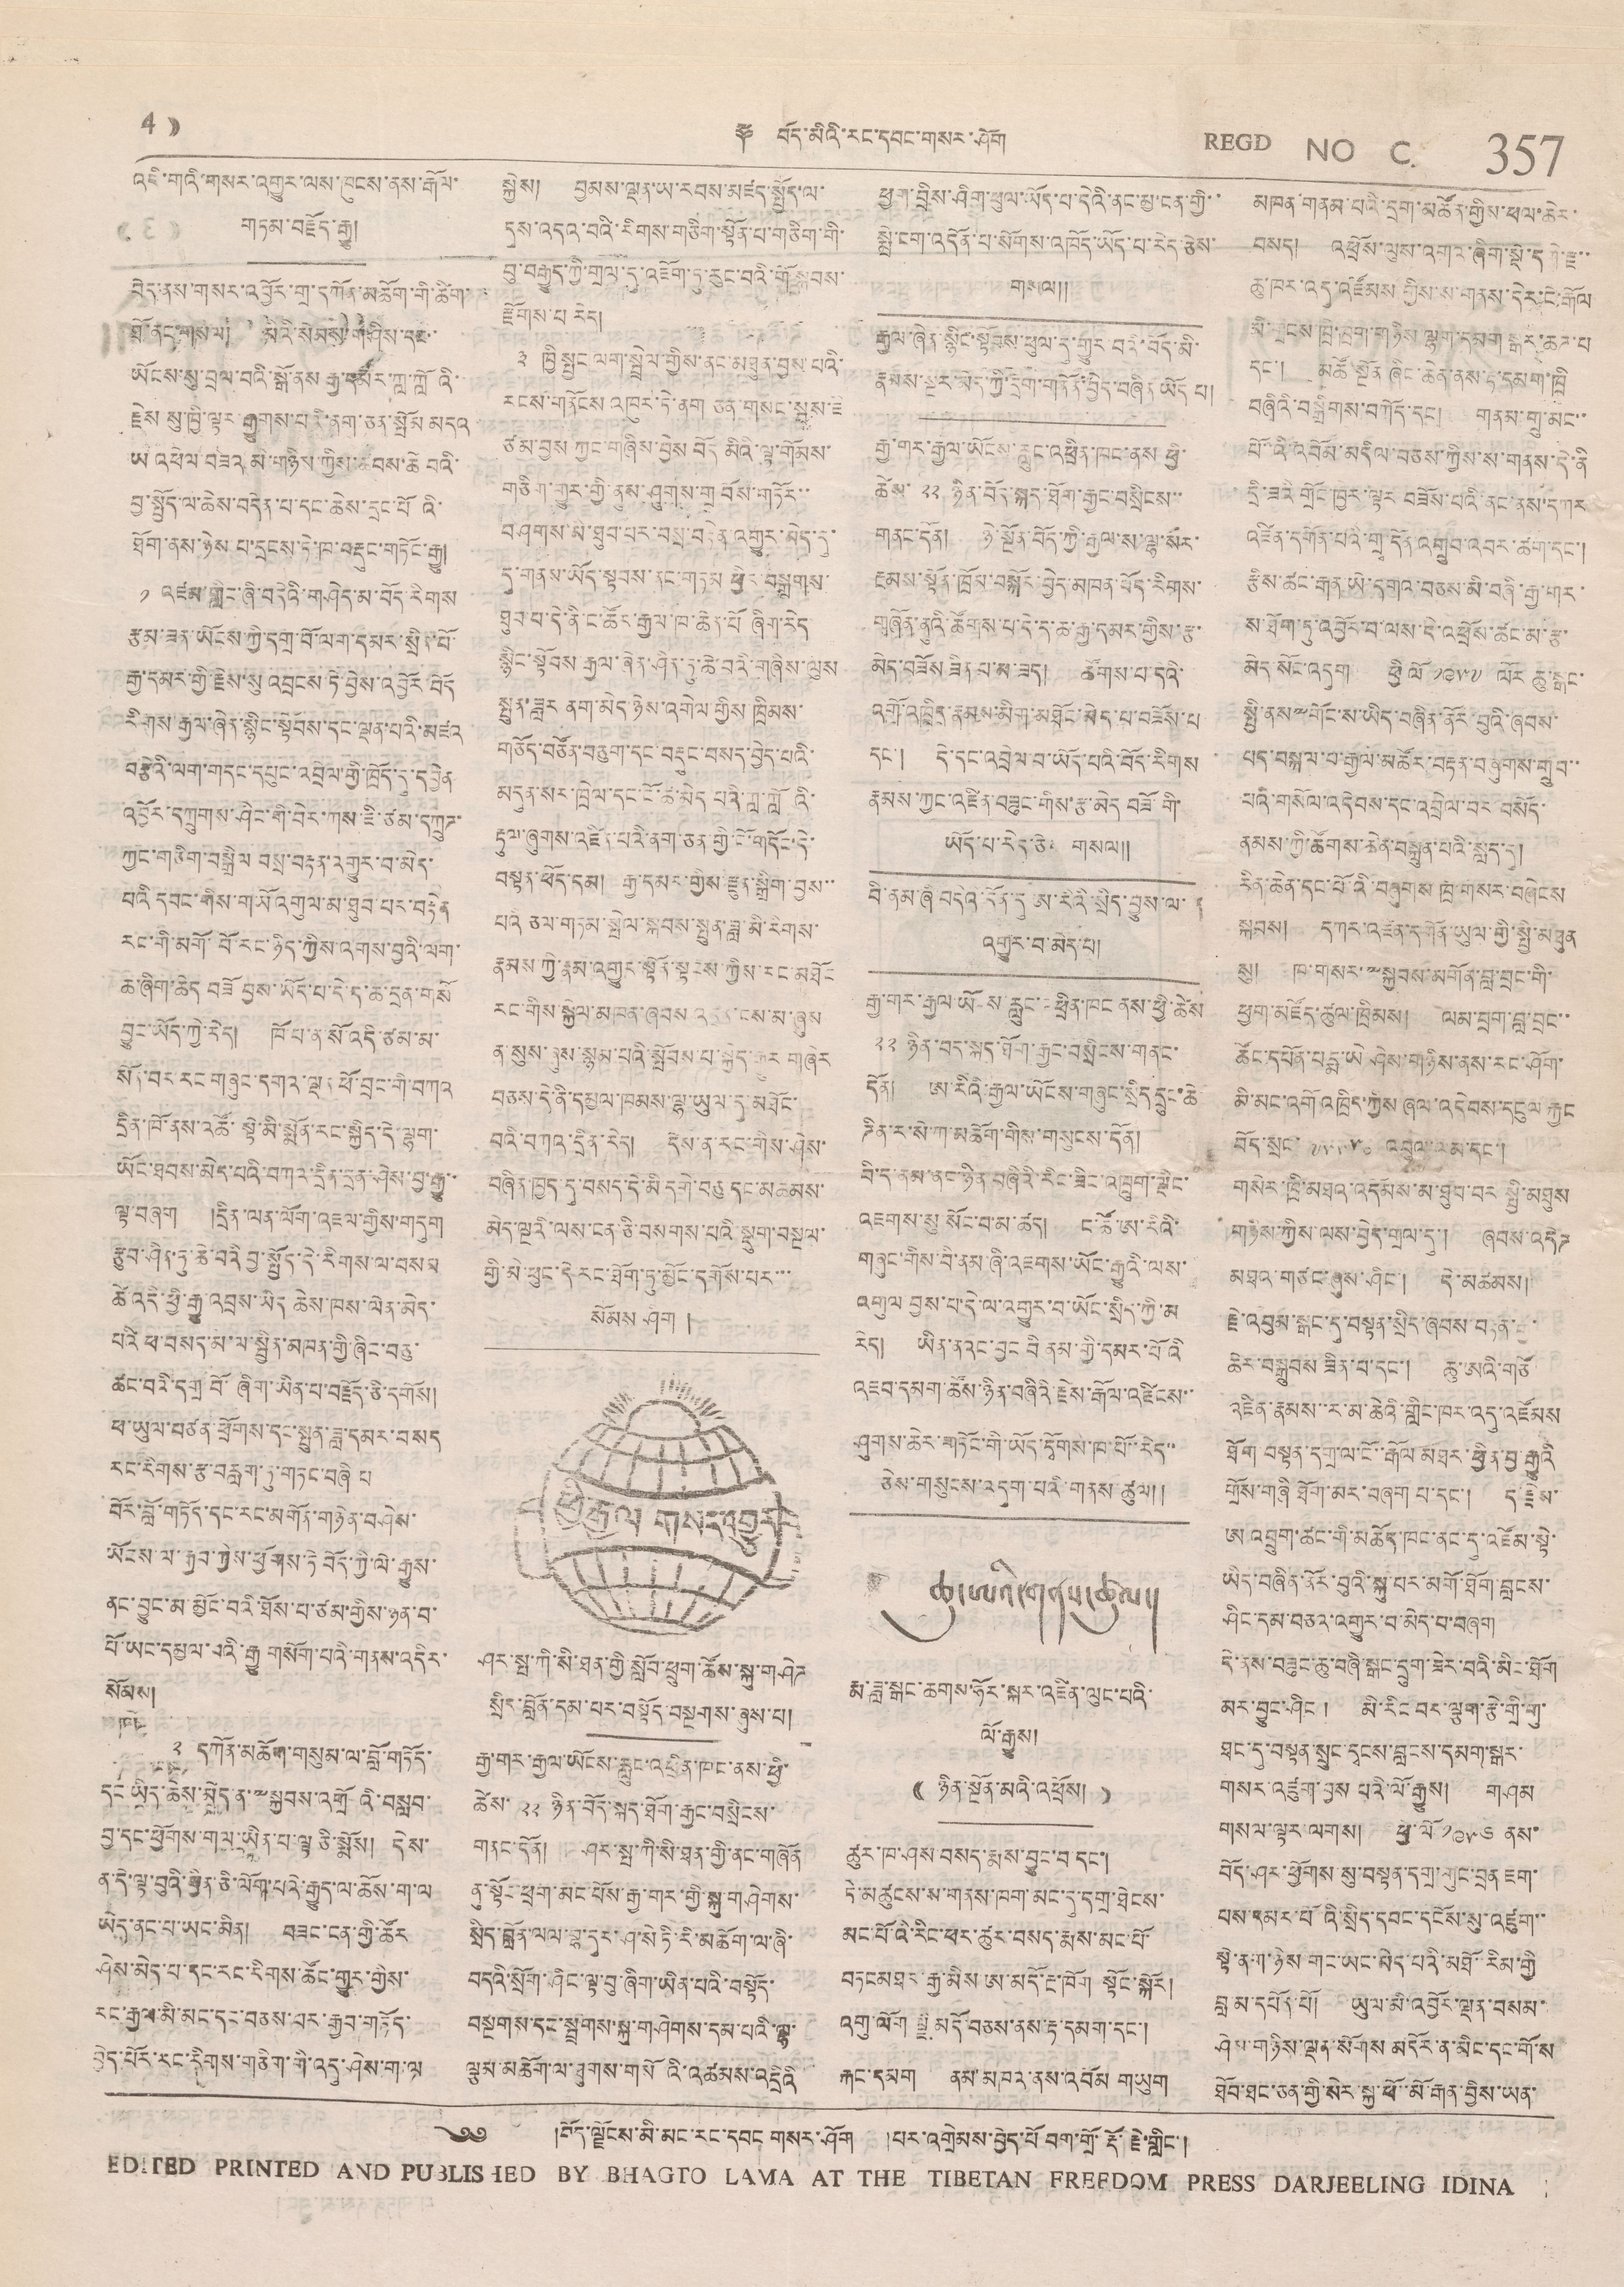4)) ༈ བོད་མིའི་རང་དབང་གསར་ཤོག REGD NO C 357
འདི་གའི་གསར་འགྱུར་ལས་ཁུངས་ནས་རྒོལ་
གཏམ་བརྗོད་རྒྱུ།
བེད་ནས་གསར་འབྱོར་གྲ་དཀོན་མཆོག་གི་ཚིག་
ཐོ་ནང་གསལ། མིའི་སེམས་གཤིས་དང་
ཡོངས་སུ་བྲལ་བའི་སྒོ་ནས་རྒྱ་དམར་གླ་གློའི་
རྗེས སུ་ཁྱི་ལྟར་རྒྱུགས་པའི་ནག་ཅན་སྤོམ མདའ
ཡ འཕེལ བཟའ མི་གཉིས་ཀྱིས་ཚབས་ཆེ བའི་
བྱ་སྤྱོད་ལ་ཆེས་བདེན་པ་དང་ཆེས་དྲང་པོའི་
ཐོག་ནས་ཉེས་པ་དྲངས་ཏེ་ཁ་བརྡུང་གཏོང་རྒྱུ།
༡ འཛམ་གླིང་ཞི་བདེའི་གཤེད་མ་བོད་རིགས
རྩམ་ཟན་ཡོངས་ཀྱི་དགྲ་བོ་ལག་དམར་སྲིན་པོ་
རྒྱ་དམར་གྱི་རྗེས་སུ འབྲངས་ཏེ་བྱེས་འབྱོར་བོད
རིགས་རྒྱལ་ཞེན་སྙིང་སྟོབས་དང་ལྡན་པའི་མཛའ
བརྩེའི་ལག་གདང་དཔུང་འབྲེལ་གྱི་ཁྲོད་དུ་དབྱིན་
འབྱོར་དཀྲུགས་ཤིང་གི་བེར་ཀས་ཇི་ཙམ་དཀྲུཌ་
ཀྱང་གཅིག་བསྒྲིལ བསྲ་བརྟན་འགྱུར་བ་མེད་
པའི དབང་གིས་གཡོ འགུལ་མ་ཐུབ་པར་བརྟེན
རང་གི་མགོ་བོ་རང་ཉིད་ཀྱིས་འགས་བྱའི་ལག་
ཆ་ཞིག་ཆེད བཟོ བྱས་ཡོད་པ་དེ་ད་ཆ་དྲན་གསོ
བྱུང་ཡོད་ཀྱི་རེད། ཁོ་པ་ན་སོ་འདི་ཙམ་མ་
སོན་བར་རང་གཞུང་དགའ་ལྡན་ཕོ་བྲང་གི་བཀའ
དྲིན་ཁོ་ནས་འཚོ་སྟེ་མི་སྟོན་རང་སྐྱིད་དེ་ལྷག་
ཡོང་ཐབས་མེད་པའི་བཀའ་དྲིན་དྲན་ཤེས་བྱ་རྒྱུ་་
ལྟ་བཞག །དྲེན་ལན་ལོག་འཇལ་གྱིས་གདུག
རྩུབ་ཤིན་ཏུ་ཆེ་བའི བྱ་སྤྱོད་དེ་རིགས་ལ་བསམ
ཚེ་འདི་ཕྱི་རྒྱུ་འབྲས་ཡིད ཆེས་ཁས་ལེན་མེད་
པའི ཕ་བསད་མ་ལ་སྤྱིན་མཁན་གྱི་ཞིང་བཅུ་
ཚང་བའི་དགྲ་བོ་ཞིག་ཡིན་པ་བརྗོད་ཅི་དགོས།
ཕ་ཡུལ་བཙན་ཕྲོགས་དང་སྤུན་ཟླ་དམར་བསད
རང་རིགས་རྩ་བརླག་ཏུ་གཏང་བཞི པ
བོར་བློ་གཏོད་དང་རང་མགོན་གཉེན་བཤེས་
ཡོངས་ལ་རྒྱབ་གྱིས་ཕྱོགས་ཏེ་བོད་ཀྱི་ལེ་རྒྱུས་
ནང་བྱུང་མ་མྱོང་བའི་ཐོས་པ་ཙམ་གྱིས་ཉན་བ་
པོ་ཡང་དམྱལ་བའི་རྒྱུ གསོག་པའི་གནས་འདིར་
སོམས།
༢ དཀོན་མཆོག་གསུམ་ལ་བློ་གཏོད་
དང་ཡིད་ཆེས་མེད་ན་༸སྐྱབས་འགྲོའི་བསླབ་
བྱ་དང་ཕྱོགས་གལ་ཡིན་པ་ལྟ་ཅི་སྨོས། དེས་
ན་དེ་ལྟ་བུའི་ཕྱིན་ཅི་ལོག་པའི་རྒྱུད་ལ་ཆོས་ག་ལ
ཡེད་ནང་པ་ཡང་མིན། བཟང་ངན་གྱི་ཚོར
ཤེས་མེད་པ་དང་རང་རིགས་ཚོང་གྱུར་གྱིས་
རང་རྒྱལ་མི་མང་དང་བཅས་པར་རྒྱབ་གཏོད་
བྱེད་པོར་རང་རིགས་གཅིག་གི་འདུ་ཤེས་ག་ལ
སྐྱེས། བྱམས་ལྡན་ཡ་རབས་མཛད་སྤྱོད་ལ་
དུས་འདའ་བའི་རིགས་གཅིག་སྟོན་པ་གཅིག་གི་
བུ་བརྒྱུད་ཀྱི་གྲལ་དུ་འཇོག་དུ་རུང་བའི་གོ་སྐབས་
རྫོགས་པ་རེད།
༣ ཁྱི སྤྱང ལག་སྦྲེལ་གྱིས་ནང་མཐུན་བྱས་པའི་
རངས་གནོངས འཁུར་ཏེ་ནག ཅན་གསང་སྦས་ཇི
ཙམ་བྱས ཀྱང་གཞིས་བྱེས བོད མིའི་ལྟ་གོམས་
གཅིག་གྱུར་གྱི་ནུས་ཤུགས་གྲ བོས་གཏོར་་
གཤགས་མི་ཐུབ་པར་བསྲ་བརྟེན་འགྱུར་མེད་སུ་
དུ་གནས་ཡོད་སྟབས་ནང་གཏམ ཕྱིར་བསྒྲགས་
ཐུན་པ་དེ་ནི་ང་ཚོར་རྒྱལ་ཁབ་ཆེན་པོ ཞིག་རེད
སྙིང་སྟོབས་རྒྱལ་ཞེན་ཤིན་ཏུ་ཆེ་བའི་གཞིས་ལུས
སྤུན་ཟླར ནག་མེད་ཉེས་འགེལ་གྱིས་ཁྲིམས་
གཅོད་བཙོན་བཅུག་དང་བརྡུང་བསད་བྱེད་པའི་
མདུན་སར་ཁྲེལ་དང་ངོ་ཚ་མེད་པའི་ཀླ་ཀླའོ་
རྟུལ་ཞུགས་འཛིན་པའི་ནག་ཅན་གྱི་ངོ་དགོང་དེ་
བསྟན་ཕོད་དམ། རྒྱ་དམར་གྱིས་རྫུན་སྒྲིག་བྱས་་
པའི ཅལ་གཏམ་སྤེལ་སྐབས་སྤུན་ཟླ་མི་རིགས་
རྣམས ཀྱི་རྣམ་འགྱུར་སྟོན་སྟངས་ཀྱིས་རང་མཐོང
རང་གིས་སྐྱེལ་མཁན་ཞབས་འདྲན་མ་ཞུས
ན་སུས་ཞུས་སྙམ་པའི་སྤོབས་པ་སྐྱེད་རྒྱུར གཞེར
བཅས་དེ་ནི་དམྱལ་ཁམས་ལྷ་ཡུལ་དུ་མཐོང་
བའི་བཀའ་དྲིན་རེད། དེས་ན་རང་གིས་ཤེས་
བཞིན་ཁྱད་དུ་བསད་དེ་མི དགེ་བཅུ དང་མཚམས་
མེད་ལྔའི་ལས་ངན་ཅི་བསགས་པའི་སྡུག་བསྔལ་
གྱི་མེ་ཕུང་དེ རང་ཐོག་ཏུ་མྱོང་དགོས་པར་་་
སོམས་ཤིག །
ཕྱི་རྒྱལ གསར་འགྱུར
ཤར་སྤ་ཀི་སི་ཐན་གྱི་སློབ་ཕྲུག་ཚོས་སྐུ་གཤེཌ
སྲིད་བློན་དམ་པར་བསྟོད་བསྔགས་ཞུས་པ།
རྒྱ་གར་རྒྱལ་ཡོངས་རླུང་འཕྲིན་ཁང་ནས་ཕྱི་
ཚེས་ ༢༢ ཉིན་བོད་སྐད་ཐོག་རྒྱང་བསྲིངས་
གནང་དོན། ཤར་སྤ་ཀི་སི་ཐན་གྱི་ནང་གཞོན
ནུ་སྟོང་ཕྲག་མང་པོས་རྒྱ་གར་གྱི་སྐུ་གཤེགས་
སྲིད་བློན་ལལ་བྷ་དུར་ཤ་སི་ཏི་རི་མཆོག་ལ་ཞི་
བདའི་སྲོག་ཤིང་ལྟ་བུ་ཞིག་ཡིན་པའི་བསྟོད་
བསྔགས་དང་སྦྲགས་སྐུ་གཤེགས་དམ་པའི་ལྷ་
ལྕམ་མཆོག་ལ་ཐུགས་གསོའི་མཚམས་འདྲིའི
ཕྱག་བྲིས་ཤིག་ཕུལ་ཡོད་པ་དེའི་ནང་མྱ་ངན་གྱི་་
སྨྲེ་ངག་འདོན་པ་སོགས་འཁོད་ཡོད་པ་རེད་ཅེས་
གསལ།།
རྒྱལ་ཞེན་སྙིང་སྟོབས་ཕུལ་དུ་གྱུར་བའི་བོད་མི་
རྣམས་སྔར་མེད་ཀྱི་དྲག་གནོན་བྱེད་བཞིན ཡོད པ།
རྒྱ་གར་རྒྱལ་ཡོངས་རླུང་འཕྲིན་ཁང་ནས ཕྱི་
ཚེས་ ༢༢ ཉིན་བོད་སྐད་ཐོག་རྒྱང་བསྲིངས་་
གནང་དོན། ཉེ་སྔོན་བོད་ཀྱི་རྒྱལ་ས་ལྷ་སར་
རྔམས་སྟོན་ཁྲོམ་བསྐོར་བྱེད་མཁན་བོད་རིགས་
གཞོན་ནུའི་ཚོགས་པ་དེ་ད་ཆ་རྒྱ་དམར་གྱིས་རྩ་
མེད་བཟོས ཟིན་པ་མ་ཟད། ཚོགས་པ་དེའི་
འགོ་འཁྲིད་རྣམས་མིག་མཐོང་མེད་པ་བཟོས་པ
དང་། དེ་དང་འབྲེལ་བ་ཡོད་པའི་བོད་རིགས
རྣམས་ཀྱང་འཛིན་བཟུང་གིས་རྩ་མེད་བཟོ་གི་
ཡོད་པ་རེད་ཅེས་གསལ།།
བི་ནམ་ཞི་བདེའི་དོན་དུ་ཨ་རིའི་སྲིད་བྱུས་ལ་
འགྱུར་བ་མེད་པ།
རྒྱ་གར་རྒྱལ་ཡོངས་རླུང་འཕྲིན་ཁང་ནས་ཕྱི་ཚེས
༢༢ ཉིན་བོད་སྐད་ཐོག་རྒྱང་བསྲིངས་གནང་
དོན། ཨ་རིའི་རྒྱལ་ཡོངས་གཞུང་སྲིད དྲུང་ཆེ
ཌིན་ར་སེ་ཀ་མཆོག་གིས་གསུངས་དོན།
བི་ད་ནམ་ནང་ཉིད་བཞིའི་རིང་ཟིང་འཁྲུག་ལྡིང་
འཇགས་སུ་སོང་བ་མ་ཚད། ང་ཚོ་ཨ་རིའི་
གཞུང་གིས་བི་ནམ་ཞི་འཇིགས་ཡོང་རྒྱུའི་ལས་
འགུལ བྱས་པ་དེ་ལ་འགྱུར་བ་ཡོང་སྲིད་ཀྱི་མ
རེད། ཡིན་ནའང་བྱང བི ནམ་གྱི་དམར་པོའི
འཇག་དམག་ཚོས་ཉིན་བཞིའི་རྗེས་རྒོལ་འཛིངས་་
ཤུགས་ཆེར་གཏོང་གི་ཡོད་དྭོགས་ཁ་པོ་་རེད་་
ཅེས་གསུངས་འདུག་པའི་གནས་ཚུལ།།
ཆུ་ཨའི་གནས་ཚུལ།
རྨ་ཟླ་སྒང་ཆགས་ཧོར་སྐར་འཛིང་ལུང་པའི་
ལོ་རྒྱུས།
(( ཉིན་སྔོན་མའི་འཕྲོས། ))
ཚུར་ཁ་ཤས་བསད་རྨས་བྱུང་བ་དང་།
དེ་མཚུངས་ས་གནས་ཁག་མང་དུ་དགྲ་ཐེངས་
མང་པོ་འི་རིང་ཕར་ཚུར་བསད་རྨས་མང་པོ་
བཏང མཐར་རྒྱ་མིས་ཨ་མདོ་རྔ་ཁོག སྟོང་སྐོར།
འགུ་ལོག ལྗི་མདོ་བཅས་ནས་རྟ་དམག་དང་།
རྐང་དམག ནམ་མཁའ་ནས་འབོམ གཡུག
མཁན་གནས་པའི་དྲག་མཚོན་གྱིས་ཕལ་ཆེར་
བསད། འཕྲོས་ལུས་འགའ་ཞིག་སྡེ་དགེ་རྫ་་
ཆུ་ཁར་འདུ་འཛོམས་གྱིས་མ་གནས་དེར་ངོ་རྒོལ
མི་གྲངས་ཁྲི་ཁྲག་གཉིས་ལྷག་དམག་སྒར་ཆཌ་པ
དང་། མཚོ་སྔོན ཞིང་ཆེན་ནས་རྟ་དམག་ཁྲི
བཞིའི་བསྒྲིགས་བཀོད་དང། གནམ་གྲུ་མང་་
པོ་་འི་འབོམ་འདིལ་བཅས་ཀྱིས་ས་གནས་དེ་ནི
དྲི་ཟའི གྲོང་ཁྱེར་ལྟར བཟོས་པའི་ནང་ནས་དགར
འཛིན་དགོན་པའི་གྲྭ་དོན་འགྲུབ་འབར་ཚག་དང་།
རྩིས་ཚང་རྒན་ཡི་དགའ་བཅས་མི་བཞི་རྒྱ་གར་
ས་ཐོག་ཏུ་འབྱོར་བ་ལས་དེ་འཕྲོས་ཚང་མ་རྩ་
མེད་སོང་འདུག ཕྱི ལོ་ ༡༩༥༧ ལོར ཆུ་རྒང་
སྤྱི་ནས་༸གོང་ས་ཡིད་བཞིན་ནོར་བུའི་ཞབས་
པད་བསྐལ་པ་རྒྱལ་མཚོར་བརྟན་བཞུགས་གྲུབ་་
པའི་གསོལ་འདེབས་དང་འབྲེལ་བར་བསོད་
ནམས་ཀྱི་ཚོགས་ཆེན་བསྐྲུན་པའི་སླད་དུ།
རིན་ཆེན་དང་པོའི་བཞུགས་ཁྲི་གསར་བཞེངས
སྐབས། དཀར་འཛིན་དགོན་ཡུལ་གྱི་སྤྱི་མཐུན
སུ། ཁ་གསར་༸སྐྱབས་མགོན་བླ་བྲང་གི་
ཕྱག་འཛོད་ཚུལ་ཁྲིམས། ལམ་བྲག་བླ་བྲང་་
ཚོང་དཔོན་པདྨ་ཡེ་ཤེས་གཉིས་ནས་རང་ཤོག་
མི་མང་འགོ འཁྲིད་ཀྱིས ཞལ་འདེབས་དངུལ རྐྱང
བོད་སྲང་ ༧༥༥༥༠ འབུལ་ལམ་དང་།
གསེར་ཁྲི་མཐའ་འདོམས་མ་ཐུབ་པར སྤྱི་འཐུས
གཉིས་ཀྱིས་ལས་བྱེད་གྲལ་དུ་། ཞབས་འདེཌ
མཐའ་གཙང་ཞུས་ཤིང་། དེ་མཚམས།
རྗེ་འབུམ་སྒང་དུ་བསྟན་སྲིད་ཞབས་བརྟན་རྒྱ་
ཆེར་བསྒྲུབས ཟིན་པ་དང་། ཆུ་ཨའི་གཙོ
འཛིན་རྣམས་་ར་མ་ཆེའི་གླིང་ཁར་འདུ་འཛོམས
ཐོག་བསྟན་དགྲ་ལ་ངོ་་རྒོལ མཐར་ཕྱིན་བྱ་རྒྱུའི
གྲོས་གཞི ཐོག་མར་བཞག པ་དང་། ད་རྗེས་
ཨ འབྲུག་ཚང་གི་མཆོད་ཁང་ནང་དུ་འཛོམ་སྟེ་
ཡོད་བཞིན་ནོར་བུའི་སྐུ་པར་མགོ་ཐོག་བླངས་
ཤིང་དམ་བཅའ་འགྱུར་བ་མེད་པ་བཞག
དེ་ནས་བཟུང་ཆུ་བཞི་སྒང་དྲུག་ཟེར་བའི་མིང་ཐོག
མར་བྱུང་ཤིང ། མི་རིང བར་ལྕག་རྩེ་གྲི་གུ་
ཐང་དུ་བསྟན་སྲུང་དྭངས་བླངས་དམག་སྒར་
གསར་འཛུག་བྱས པའི་ལོ་རྒྱུས། གཤམ
གསལ་ལྟར་ལགས། ཕྱི་ལོ ༡༩༥༦ ནས་
བོད་ཤར་ཕྱོགས་སུ་བསྟན་དགྲ་གུང་བྲན ཇག་
པས་དམར་པོའི་སྲིད་དབང་དངོས་སུ་འཛུག་་
སྟེ་ནག་ཉེས གང་ཡང་མེད་པའི་མཐོ་རིམ་གྱི
བླ་མ་དཔོན་པོ། ཡུལ་མི་འབྱོར་ལྡན་བསམ་
ཤེས་གཉིས་ལྡན་སོགས མདོར་ན་མིང་དང་གོ་ས
ཐོབ་ཐང་ཅན་གྱི་སེར་སྐྱ་ཕོ་་མོ་རྒན་བྱིས་ཡན་
༄༅ །བོད་ལྗོངས་མི་མང་རང་དབང གསར་ཤོག །པར་འགྲེམས་བྱེད་པོ བག་གྲོ་རྡོ་རྗེ་གླིང་།
EDITED PRINTED AND PUBLISHED BY BHAGTO LAMA AT THE TIBETAN FREEDOM PRESS DARJEELING IDINA
